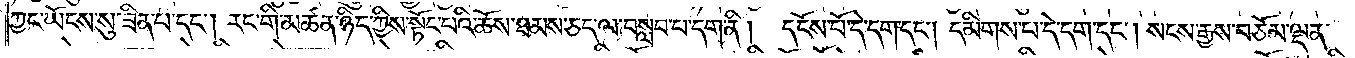ཀྱང་ཡོངས་སུ་ཟིན་པ་དང༌། རང་གི་མཚན་ཉིད་ཀྱིས་སྟོང་བའི་ཆོས་ཐམས་ཅད་ལ་བསླབ་པ་དག་ནི། དངོས་པོ་དེ་དག་དང༌། དམིགས་བ་དེ་དག་དང༌། སངས་རྒྱས་བཅོམ་ལྡན་
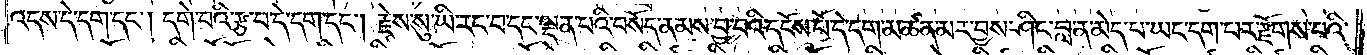འདས་དེ་དག་དང༌། དགེ་བའི་རྩ་བ་དེ་དག་དང༌། རྗེས་སུ་ཡི་རང་བ་དང་ལྡན་པའི་བསོད་ནམས་བྱ་བའི་དངོས་པོ་དེ་དག་མཚན་མར་བྱས་ཤིང་བླ་ན་མེད་པ་ཡང་དག་པར་རྫོགས་པའི་
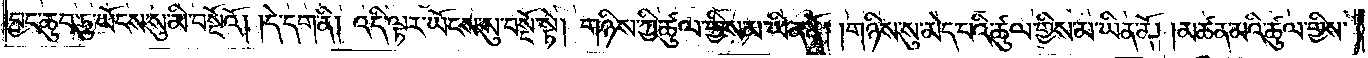བྱང་ཆུབ་ཏུ་ཡོངས་སུ་མི་བསྔོའོ། །དེ་དག་ནི། འདི་ལྟར་ཡོངས་སུ་བསྔོ་སྟེ། གཉིས་ཀྱི་ཚུལ་གྱིས་མ་ཡིན་ནོ། །གཉིས་སུ་མེད་པའི་ཚུལ་གྱིས་མ་ཡིན་ནོ། །མཚན་མའི་ཚུལ་གྱིས་
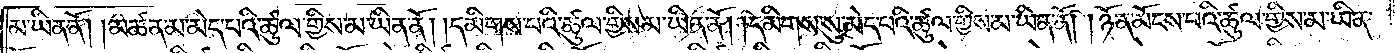མ་ཡིན་ནོ། །མཚན་མ་མེད་པའི་ཚུལ་གྱིས་མ་ཡིན་ནོ། །དམིགས་པའི་ཚུལ་གྱིས་མ་ཡིན་ནོ། །དམིགས་སུ་མེད་པའི་ཚུལ་གྱིས་མ་ཡིན་ནོ། །ཉོན་མོངས་པའི་ཚུལ་གྱིས་མ་ཡིན་
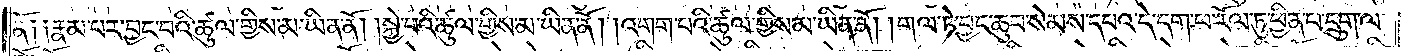ནོ༑ ༑རྣམ་པར་བྱང་བའི་ཚུལ་གྱིས་མ་ཡིན་ནོ། །སྐྱེ་བའི་ཚུལ་གྱིས་མ་ཡིན་ནོ། །འགག་པའི་ཚུལ་གྱིས་མ་ཡིན་ནོ། །གལ་ཏེ་བྱང་ཆུབ་སེམས་དཔའ་དེ་དག་ཕ་རོལ་ཏུ་ཕྱིན་པ་དྲུག་ལ་
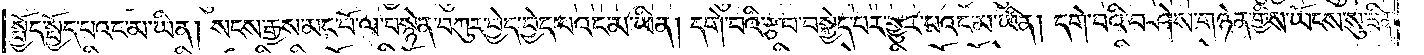སྤྱོད་སྤྱོད་པའང་མ་ཡིན། །སངས་རྒྱས་མང་པོ་ལ་བསྙེན་བཀུར་བྱེད་བྱེད་པའང་མ་ཡིན། དགེ་བའི་རྩ་བ་བསྐྱེད་པར་གྱུར་པའང་མ་ཡིན། དགེ་བའི་བཤེས་གཉེན་གྱིས་ཡོངས་སུ་ཟིན་
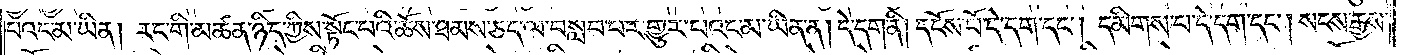པའང་མ་ཡིན། རང་གི་མཚན་ཉིད་ཀྱིས་སྟོང་པའི་ཆོས་ཐམས་ཅད་ལ་བསླབ་པར་གྱུར་པའང་མ་ཡིན་ན། དེ་དག་ནི། དངོས་པོ་དེ་དག་དང༌། དམིགས་པ་དེ་དག་དང༌། སངས་རྒྱས་
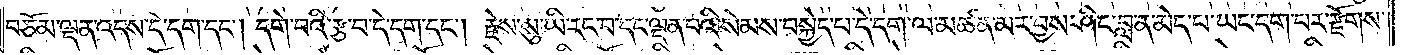བཅོམ་ལྡན་འདས་དེ་དག་དང༌། དགེ་བའི་རྩ་བ་དེ་དག་དང༌། རྗེས་སུ་ཡི་རང་བ་དང་ལྡན་བའི་སེམས་བསྐྱེད་པ་དེ་དག་ལ་མཚན་མར་བྱས་ཤིང་བླ་ན་མེད་པ་ཡང་དག་པར་རྫོགས་
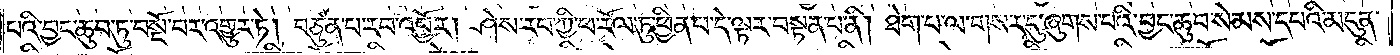པའི་བྱང་ཆུབ་ཏུ་བསྔོ་བར་འགྱུར་ཏེ། བཙུན་པ་རབ་འབྱོར། ཤེས་རབ་ཀྱི་ཕ་རོལ་ཏུ་ཕྱིན་པ་དེ་ལྟར་བསྟན་པ་ནི། ཐེག་པ་ལ་གསར་དུ་ཞུགས་པའི་བྱང་ཆུབ་སེམས་དཔའི་མདུན་
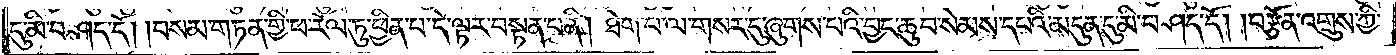དུ་མི་བཤད་དོ། །བསམ་གཏན་གྱི་ཕ་རོལ་ཏུ་ཕྱིན་པ་དེ་ལྟར་བསྟན་པ་ནི། ཐེག་པ་ལ་གསར་དུ་ཞུགས་པའི་བྱང་ཆུབ་སེམས་དཔའི་མདུན་དུ་མི་བཤད་དོ། །བརྩོན་འགྲུས་ཀྱི་
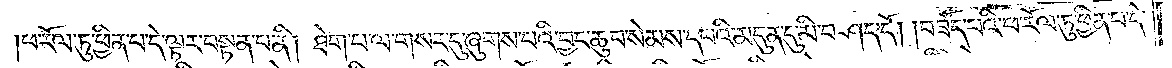ཕ་རོལ་ཏུ་ཕྱིན་པ་དེ་ལྟར་བསྟན་པ་ནི། ཐེག་པ་ལ་གསར་དུ་ཞུགས་པའི་བྱང་ཆུབ་སེམས་དཔའི་མདུན་དུ་མི་བཤད་དོ། །བཟོད་པའི་ཕ་རོལ་ཏུ་ཕྱིན་པ་དེ་
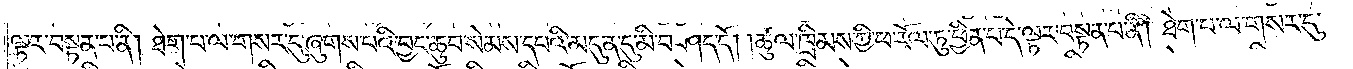ལྟར་བསྟན་པ་ནི། ཐེག་པ་ལ་གསར་དུ་ཞུགས་པའི་བྱང་ཆུབ་སེམས་དཔའི་མདུན་དུ་མི་བཤད་དོ། །ཚུལ་ཁྲིམས་ཀྱི་ཕ་རོལ་ཏུ་ཕྱིན་པ་དེ་ལྟར་བསྟན་པ་ནི། ཐེག་པ་ལ་གསར་དུ་
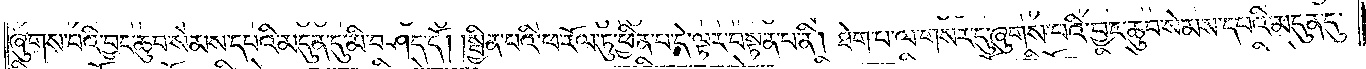ཞུགས་པའི་བྱང་ཆུབ་སེམས་དཔའི་མདུན་དུ་མི་བཤད་དོ། །སྦྱིན་པའི་ཕ་རོལ་ཏུ་ཕྱིན་པ་དེ་ལྟར་བསྟན་པ་ནི། ཐེག་པ་ལ་གསར་དུ་ཞུགས་པའི་བྱང་ཆུབ་སེམས་དཔའི་མདུན་དུ་
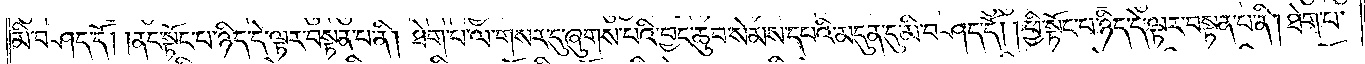མི་བཤད་དོ། །ནང་སྟོང་པ་ཉིད་དེ་ལྟར་བསྟན་པ་ནི། ཐེག་པ་ལ་གསར་དུ་ཞུགས་པའི་བྱང་ཆུབ་སེམས་དཔའི་མདུན་དུ་མི་བཤད་དོ། །ཕྱི་སྟོང་པ་ཉིད་དེ་ལྟར་བསྟན་པ་ནི། ཐེག་པ་
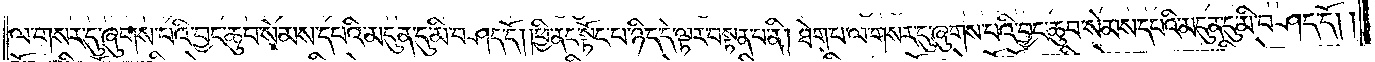ལ་གསར་དུ་ཞུགས་པའི་བྱང་ཆུབ་སེམས་དཔའི་མདུན་དུ་མི་བཤད་དོ། །ཕྱི་ནང་སྟོང་པ་ཉིད་དེ་ལྟར་བསྟན་པ་ནི། ཐེག་པ་ལ་གསར་དུ་ཞུགས་པའི་བྱང་ཆུབ་སེམས་དཔའི་མདུན་དུ་མི་བཤད་དོ། །
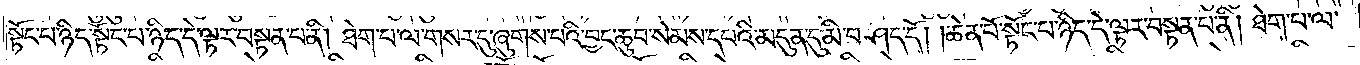སྟོང་པ་ཉིད་སྟོང་པ་ཉིད་དེ་ལྟར་བསྟན་པ་ནི། ཐེག་པ་ལ་གསར་དུ་ཞུགས་པའི་བྱང་ཆུབ་སེམས་དཔའི་མདུན་དུ་མི་བཤད་དོ། །ཆེན་པོ་སྟོང་པ་ཉིད་དེ་ལྟར་བསྟན་པ་ནི། ཐེག་པ་ལ་
